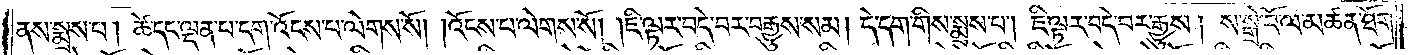ནས་སྨྲས་པ། ཚེ་དང་ལྡན་པ་དག་འོངས་པ་ལེགས་སོ། །འོངས་པ་ལེགས་སོ། །ཇི་ལྟར་བདེ་བར་བརྒྱུས་སམ། དེ་དག་གིས་སྨྲས་པ། ཇི་ལྟར་བདེ་བར་རྒྱུས། ས་སྒྲེ་བོ་ལ་མཚན་ཐོག་
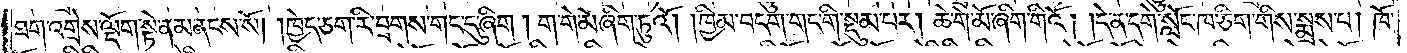ཐག་འགྲེས་ལྡོག་སྟེ་ནམ་ནངས་སོ། །ཁྱེད་ཅག་རི་བྲགས་གང་དུ་ཞིག །ག་གེ་མོ་ཞིག་ཏུའོ། །ཁྱིམ་བདག་གང་གི་སྡུམ་པར། ཆེ་གེ་མོ་ཞིག་གིའོ། །དེ་ན་དགེ་སློང་ཁ་ཅིག་གིས་སྨྲས་པ། ཁོ་
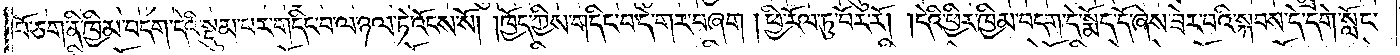བོ་ཅག་ནི་ཁྱིམ་བདག་དེའི་སྡུམ་པར་གདིང་བ་ལ་ཉལ་ཏེ་འོངས་སོ། །ཁྱོད་ཀྱིས་གདིང་བ་དེ་གར་བཞག །ཕྱི་རོལ་ཏུ་བོར་རོ། །དེའི་ཕྱིར་ཁྱིམ་བདག་དེ་སྨོད་དོ་ཞེས་ཟེར་བའི་སྐབས་དེ་དགེ་སློང་
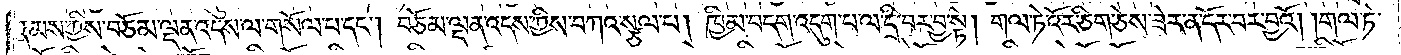རྣམས་ཀྱིས་བཅོམ་ལྡན་འདས་ལ་གསོལ་པ་དང༌། བཅོམ་ལྡན་འདས་ཀྱིས་བཀའ་སྩལ་པ། ཁྱིམ་བདག་འདུག་པ་ལ་དྲི་བར་བྱ་སྟེ། གལ་ཏེ་འོར་ཅིག་ཅེས་ཟེར་ན་དོར་བར་བྱའོ། །གལ་ཏེ་
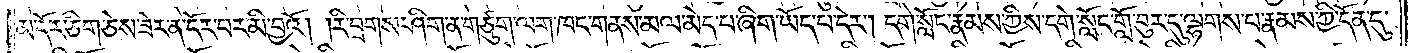མ་དོར་ཅིག་ཅེས་ཟེར་ན་དོར་བར་མི་བྱའོ། །རི་བྲགས་ཤིག་ན་གཙུག་ལག་ཁང་གནས་མལ་མེད་པ་ཞིག་ཡོད་པ་དེར། དགེ་སློང་རྣམས་ཀྱིས་དགེ་སློང་གློ་བུར་དུ་ལྷགས་པ་རྣམས་ཀྱི་དོན་དུ་
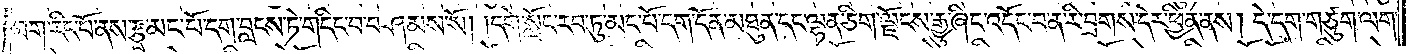ཐག་རིང་པོ་ནས་རྩྭ་མང་པོ་དག་བླངས་ཏེ་གདིང་བ་བཤམས་སོ། །དགེ་སློང་རབ་ཏུ་མང་པོ་དག་དོན་མཐུན་དང་ལྷན་ཅིག་ལྗོངས་རྒྱུ་ཞིང་འདོང་བ་ན་རི་བྲགས་དེར་ཕྱིན་ནས། དེ་དག་གཙུག་ལག་
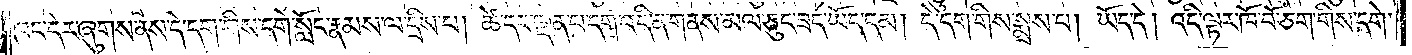ཁང་དེར་ཞུགས་ནས་དེ་དག་གིས་དགེ་སློང་རྣམས་ལ་དྲིས་པ། ཚེ་དང་ལྡན་པ་དག་འདི་ན་གནས་མལ་ཅུང་ཟད་ཡོད་དམ། དེ་དག་གིས་སྨྲས་པ། ཡོད་དེ། འདི་ལྟར་ཁོ་བོ་ཅག་གིས་དགེ་
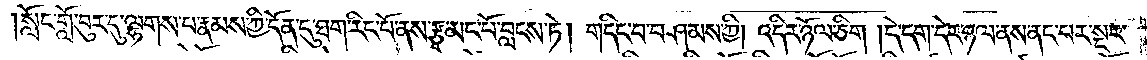སློང་གློ་བུར་དུ་ལྷགས་པ་རྣམས་ཀྱི་དོན་དུ་ཐག་རིང་པོ་ནས་རྩྭ་མང་པོ་བླངས་ཏེ། གདིང་བ་བཤམས་ཀྱི། འདིར་ཉོལ་ཅིག །དེ་དག་དེར་ཉལ་ནས་ནང་པར་སྔར་
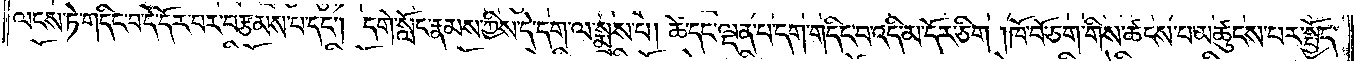ལངས་ཏེ་གདིང་བ་དེ་དོར་བར་བརྩམས་པ་དང༌། དགེ་སློང་རྣམས་ཀྱིས་དེ་དག་ལ་སྨྲས་པ། ཚེ་དང་ལྡན་པ་དག་གདིང་བ་འདི་མ་དོར་ཅིག །ཁོ་བོ་ཅག་གིས་ཚངས་པ་མཚུངས་པར་སྤྱོད་
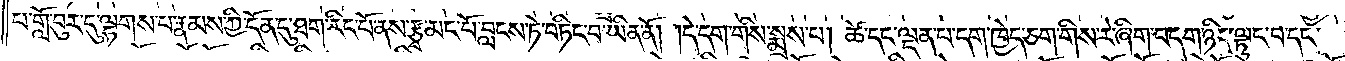པ་གློ་བུར་དུ་ལྷགས་པ་རྣམས་ཀྱི་དོན་དུ་ཐག་རིང་པོ་ནས་རྩྭ་མང་པོ་བླངས་ཏེ་བཏིང་བ་ཡིན་ནོ། །དེ་དག་གིས་སྨྲས་པ། ཚེ་དང་ལྡན་པ་དག་ཁྱེད་ཅག་གིས་རེ་ཞིག་བདག་ཉིད་ལྟུང་བ་དང་
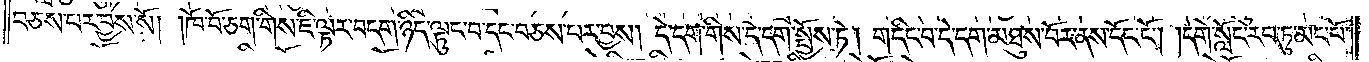བཅས་པར་བྱས་སོ། །ཁོ་བོ་ཅག་གིས་ཇི་ལྟར་བདག་ཉིད་ལྟུང་བ་དང་བཅས་པར་བྱས། དེ་དག་གིས་དེ་དག་སྤྱོས་ཏེ། གདིང་བ་དེ་དག་མཐུས་བོར་ནས་དོང་ངོ༌། །དགེ་སློང་རབ་ཏུ་མང་པོ་
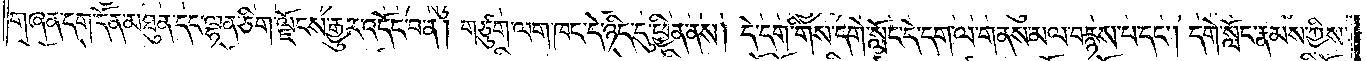གཞན་དག་དོན་མཐུན་དང་ལྷན་ཅིག་ལྗོངས་རྒྱུར་འདོང་བ་ན། གཙུག་ལག་ཁང་དེ་ཉིད་དུ་ཕྱིན་ནས། དེ་དག་གིས་དགེ་སློང་དེ་དག་ལ་གནས་མལ་བརྙས་པ་དང༌། དགེ་སློང་རྣམས་ཀྱིས་
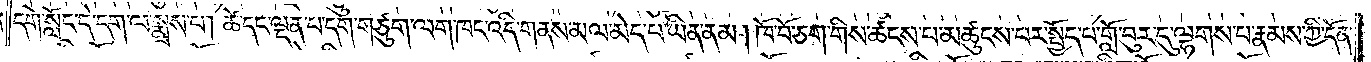དགེ་སློང་དེ་དག་ལ་སྨྲས་པ། ཚེ་དང་ལྡན་པ་དག་གཙུག་ལག་ཁང་འདི་གནས་མལ་མེད་པ་ཡིན་ནམ། ཁོ་བོ་ཅག་གིས་ཚངས་པ་མཚུངས་པར་སྤྱོད་པ་གློ་བུར་དུ་ལྷགས་པ་རྣམས་ཀྱི་དོན་
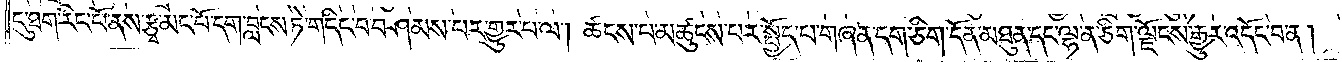དུ་ཐག་རིང་པོ་ནས་རྩྭ་མང་པོ་དག་བླངས་ཏེ་གདིང་བ་བཤམས་པར་གྱུར་བ་ལ། ཚངས་པ་མཚུངས་པར་སྤྱོད་པ་གཞན་དག་ཅིག་དོན་མཐུན་དང་ལྷན་ཅིག་ལྗོངས་རྒྱུར་འདོང་བ་ན།
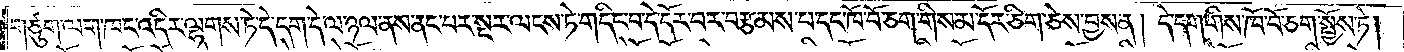གཙུག་ལག་ཁང་འདིར་ལྷགས་ཏེ་དེ་དག་དེ་ལ་ཉལ་ནས་ནང་པར་སྔར་ལངས་ཏེ་གདིང་བ་དེ་དོར་བར་བརྩམས་པ་དང་ཁོ་བོ་ཅག་གིས་མ་དོར་ཅིག་ཅེས་བྱས་ན། དེ་དག་གིས་ཁོ་བོ་ཅག་སྤྱོས་ཏེ།
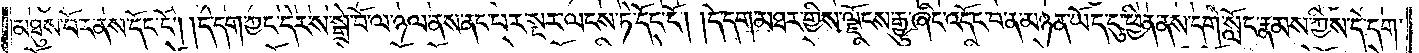མཐུས་བོར་ནས་དོང་ངོ༌། །དེ་དག་ཀྱང་དེར་ས་སྒྲེ་བོ་ལ་ཉལ་ནས་ནང་པར་སྔར་ལངས་ཏེ་དོང་ངོ༌། །དེ་དག་མཐར་གྱིས་ལྗོངས་རྒྱུ་ཞིང་འདོང་བ་ན་མཉན་ཡོད་དུ་ཕྱིན་ནས་དགེ་སློང་རྣམས་ཀྱིས་དེ་དག་
